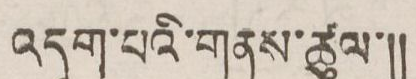འདུག་པའི་གནས་ཚུལ་།།
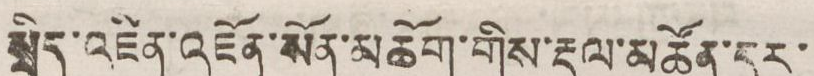སྲིད་འཛིན་འཇོན་སོན་མཆོག་གིས་རྡུལ་མཚོན་དར་
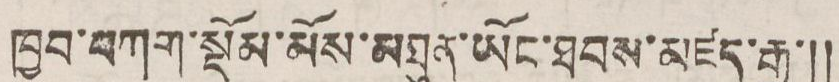ཁྱབ་བཀག་སྡོམ་མོས་མཐུན་ཡོང་ཐབས་མཛད་རྒྱུ་།།
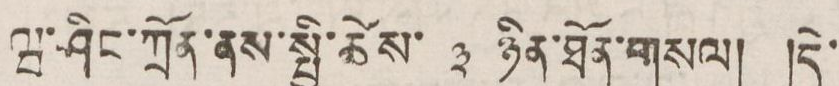ཝ་ཤིང་ཀྲོན་ནས་སྤྱི་ཚེས་ ༣ ཉིན་ཐོན་གསལ། །དེ་
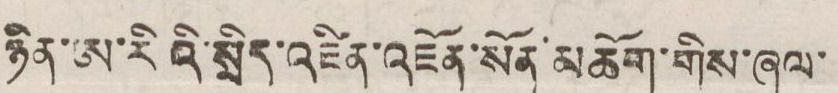ཉིན་ཨ་རིའི་སྲིད་འཛིན་འཇོན་སོན་མཆོག་གིས་ཞལ་
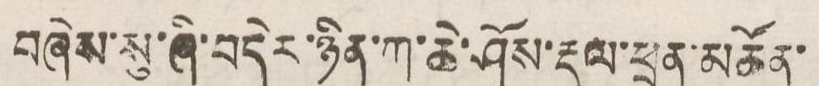བཞེས་སུ་ཞི་བདེར་ཉིན་ཀ་ཆེ་ཤོས་རྡུལ་ཕྲན་མཚོན་
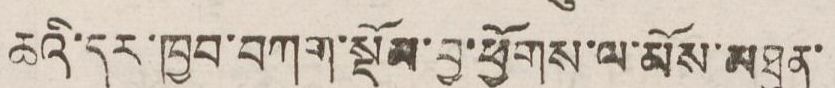ཆའི་དར་ཁྱབ་བཀག་སྡོམ་བྱ་ཕྱོགས་ལ་མོས་མཐུན་
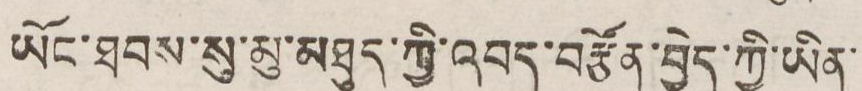ཡོང་ཐབས་སུ་མུ་མཐུན་ཀྱི་འབད་བརྩོད་བྱེད་ཀྱི་ཡིན་
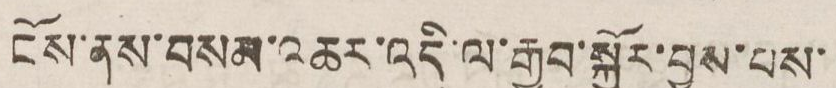ངོས་ནས་བསམ་འཆར་འདི་ལ་རྒྱབ་སྐྱོར་བྱས་པས་
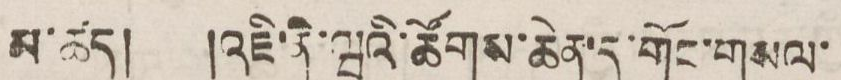མ་ཚད། །འཇི་ནེ་ཝའི་ཚོགས་ཆེན་དུ་གོང་གསལ་
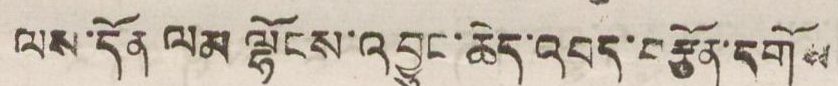ལས་དོན ལམ་ལྷོངས་འབྱུང་ཆེད་འབད་བརྩོན་དགོས
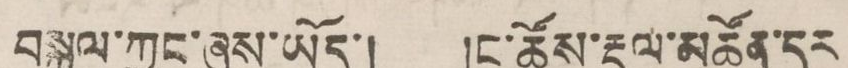བསྐུལ་ཀྱང་ཞུས་ཡོད་། །ང་ཚོས་རྡུལ་མཚོན་དར
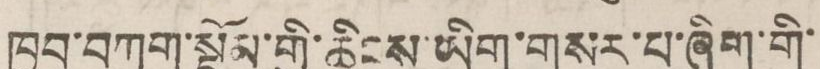ཁྱབ་བཀག་སྡོམ་གྱི་ཆིངས་ཡིག་གསར་པ་ཞིག་གི་
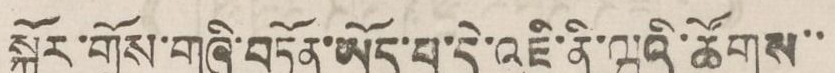སྐོར་གྲོས་གཞི་བཏོན་ཡོད་པ་དེ་འཇི་ནི་ཝའི་ཚོགས་་
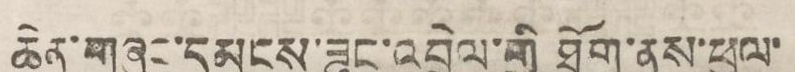ཆེན་གཞུང་དམངས་ཟུང་འབྲེལ་གྱི ཐོག་ནས་ཕུལ་
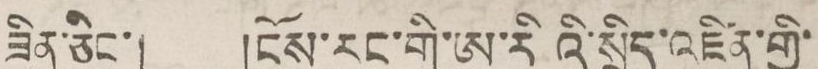ཟིན་ཅིང་། །ངོས་རང་གི་ཨ་རིའི་སྲིད་འཛིན་གྱི་
